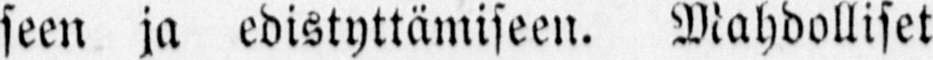seen ja edistyttämiseen. Mahdolliset
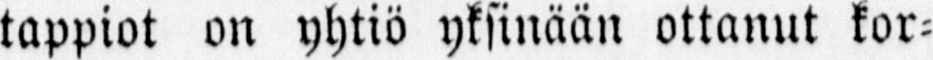tappiot on yhtiö yksinään ottanut kor-
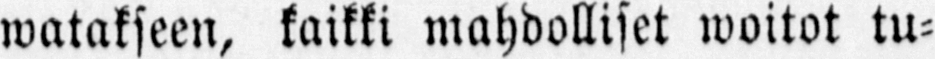watakseen, kaikki mahdolliset woitot tu-
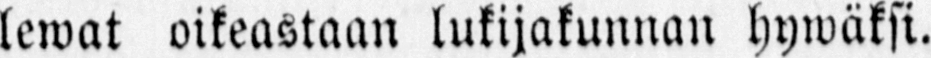lewat oikeastaan lukijakunnan hywäksi.
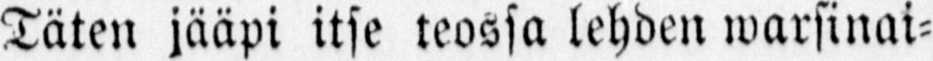Täten jääpi itse teossa lehden warsinai-
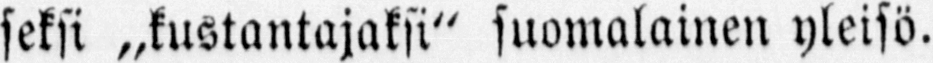seksi „kustantajaksi" suomalainen yleisö.
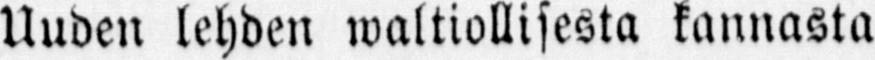Uuden lehden waltiollisesta kannasta
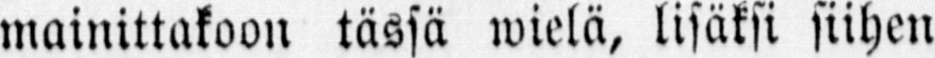mainittakoon tässä wielä, lisäksi siihen
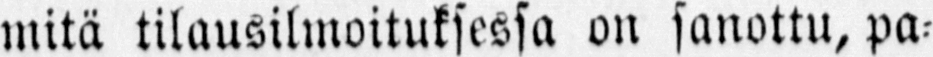mitä tilausilmoituksessa on sanottu, pa-
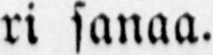ri sanaa.
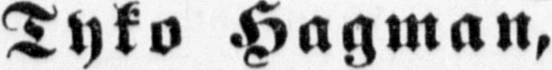Tyko Hagman,
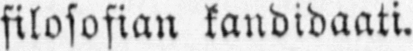filosofian kandidaati.
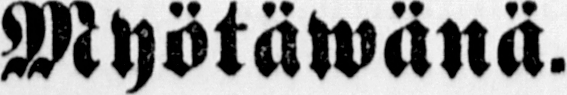Myötäwänä.
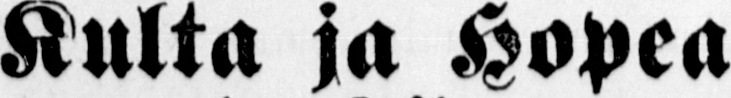Kulta ja Hopea
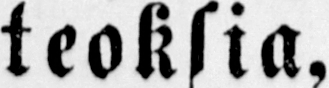teoksia,
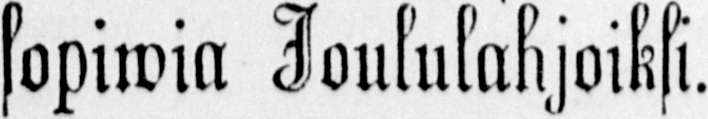sopiwia Joululahjoiksi.
